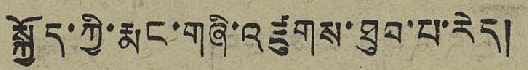སྐྱོད་ཀྱི་རྨང་གཞི་འཛུགས་ཐུབ་པ་རེད།
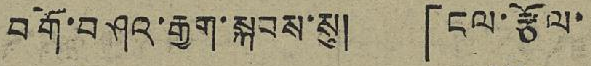བགོ་བཤའ་རྒྱག་སྐབས་སུ། 「ངལ་རྩོལ་
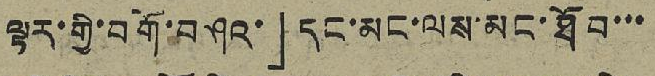ལྟར་གྱི་བགོ་བཤའ་」དང་མང་ལས་མང་ཐོབ་་་
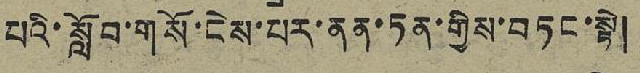པའི་སློབ་གསོ་ངེས་པར་ནན་ཏན་གྱིས་བཏང་སྟེ།
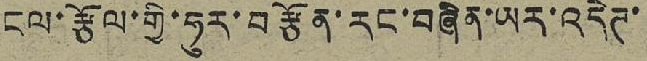ངལ་རྩོལ་གྱི་ཧུར་བརྩོན་རང་བཞིན་ཡར་འདེཌ་
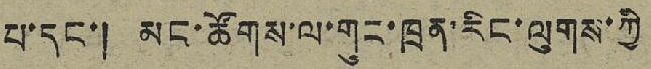པ་དང་། མང་ཚོགས་ལ་གུང་ཁྲན་རིང་ལུགས་ཀྱི
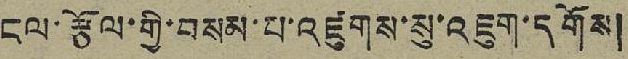ངལ་རྩོལ་གྱི་བསམ་པ་འཛུགས་སུ་འཇུག་དགོས།
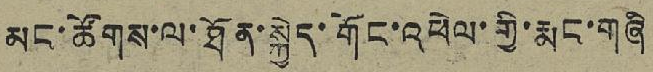མང་ཚོགས་ལ་ཐོན་སྐྱེད་གོང་འཕེལ་གྱི་རྨང་གཞི
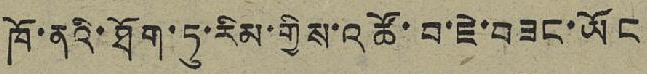ཁོ་ནའི་ཐོག་ཏུ་རིམ་གྱིས་འཚོ་བ་ཇེ་བཟང་ཡོང
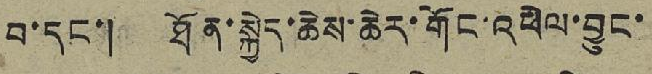བ་དང་། ཐོན་སྐྱེད་ཆེས་ཆེར་གོང་འཕེལ་བྱུང་
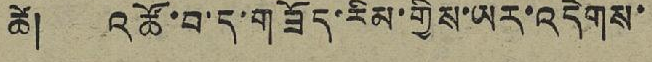ཚེ། འཚོ་བ་གཟོད་རིམ་གྱིས་ཡར་འདེགས་
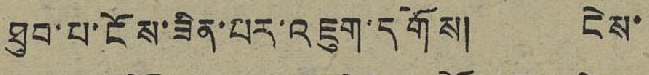ཐུབ་པ་ངོས་ཟིན་པར་འཇུག་དགོས། ངེས་
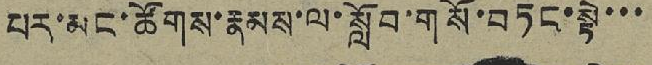པར་མང་ཚོགས་རྣམས་ལ་སློབ་གསོ་བཏང་སྟེ་་་
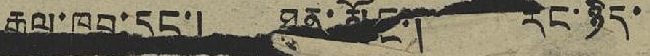རྒྱལ་ཁབ་དང་། ཐུན་མོང་། རང་ཉིད་
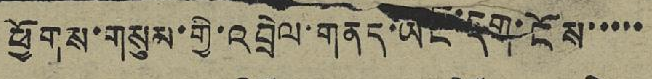ཕྱོགས་གསུམ་གྱི་འབྲེལ་གནད་ཡང་དག་ངོས་་་་་
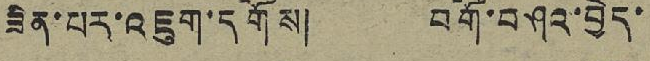ཟིན་པར་འཇུག་དགོས། བགོ་བཤའ་བྱེད་
